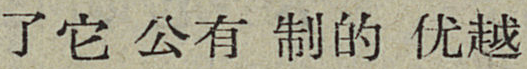了它公有制的优越
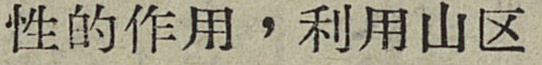行的作用，利用山区
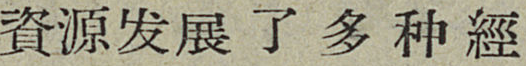資源发展了多种經
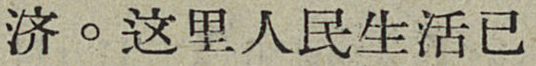济。这里人民生活已
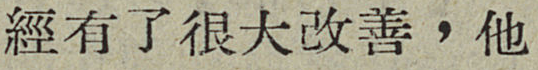經有了很大改善，他
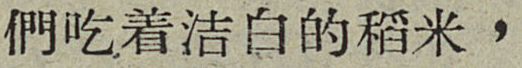們吃着洁白的稻米，
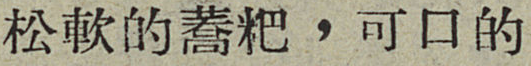松軟的蕎粑，可口的
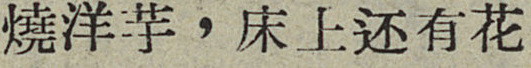燒洋芋，床上还有花
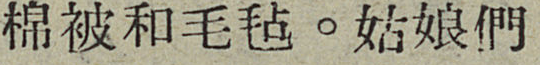棉被和毛毡。姑娘們
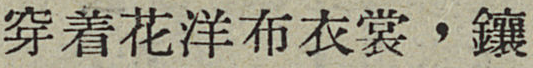穿着花洋布衣裳，鑲
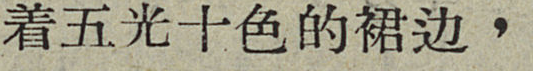着五光十色的裙边，
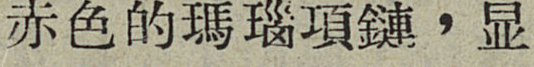赤色的瑪瑙項鍊，显
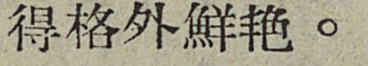得格外鮮艳。
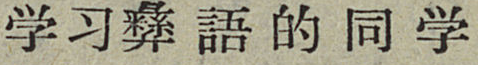学习彝語的同学
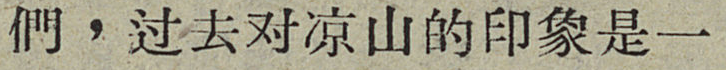們，过去对凉山的印象是一
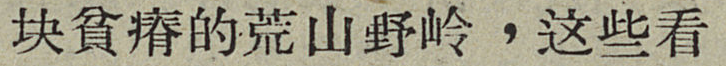块貧瘠的荒山野岭，这些看
